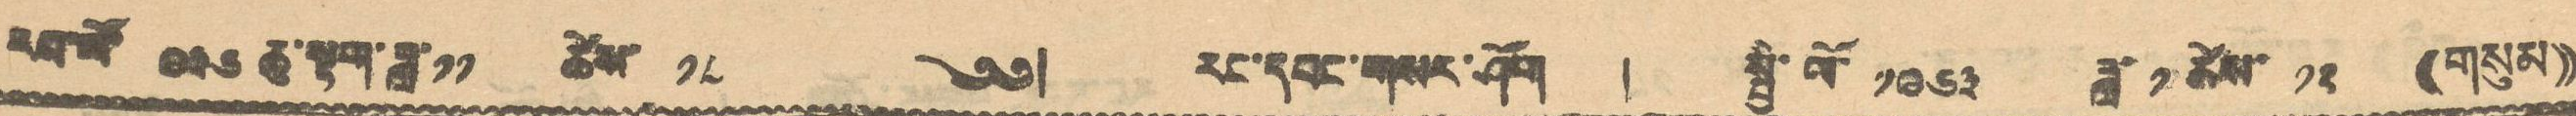རབ་ལོ་ ༩༣༦ ཆུ་སྟག་ཟླ་༡༡ ཚེས་ ༡༨ ༄༅། རང་དབང་གསར་ཤོག ། སྤྱི་ལོ་ ༡༩༦༣ ཟླ་ ༡ ཚེས་ ༡༢ ((གསུམ))
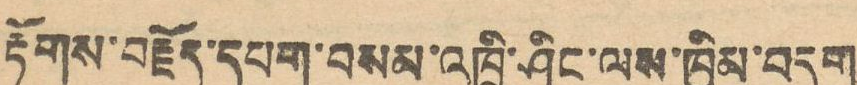རྟོགས་བརྗོད་དཔག་བསམ་འཁྲི་ཤིང་ལས་ཁྱིམ་བདག
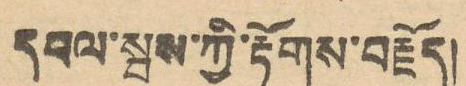དབལ་སྤས་ཀྱི་རྟོགས་བརྗོད།
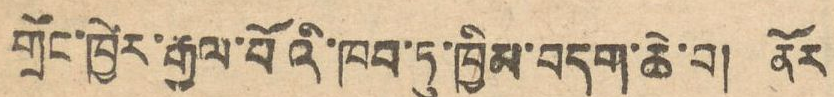གྲོང་ཁྱེར་རྒྱལ་པོའི་ཁབ་ཏུ་ཁྱིམ་བདག་ཆེ་བ། ནོར
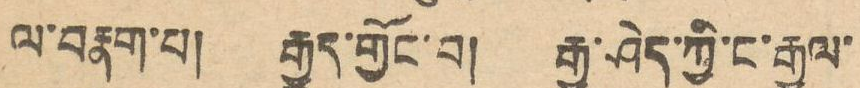ལ་བརྣག་པ། རྒྱུད་གྱོང་བ། རྒྱུ་ཤེད་ཀྱི་ང་རྒྱལ་
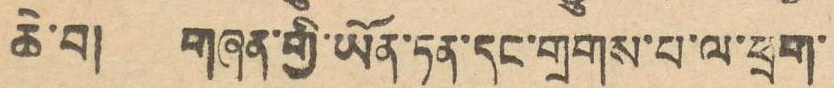ཆེ་བ། གཞན་གྱི་ཡོན་ཏན་དང་གྲགས་པ་ལ་ཕྲག་
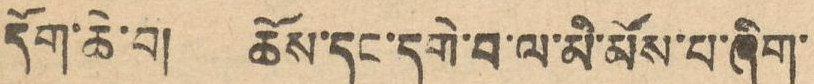དོག་ཆེ་བ། ཆོས་དང་དགེ་བ་ལ་མི་མོས་པ་ཞིག་
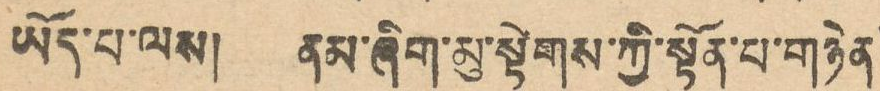ཡོད་པ་ལས། ནམ་ཞིག་མུ་སྟེགས་ཀྱི་སྟོན་པ་གཉེན་
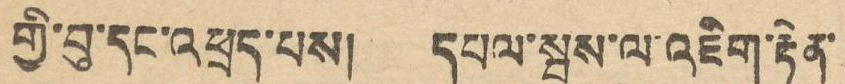གྱི་བུ་དང་འཕྲད་པས། དཔལ་སྤས་ལ་འཇིག་རྟེན་
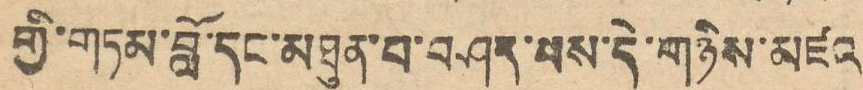གྱི་གཏམ་བློ་དང་མཐུན་པ་བཤད་པས་དེ་གཉིས་མཛའ
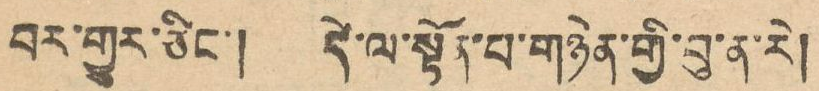བར་གྱུར་ཅིང་། དེ་ལ་སྟོད་པ་གཉེན་གྱི་བུ་ན་རེ།
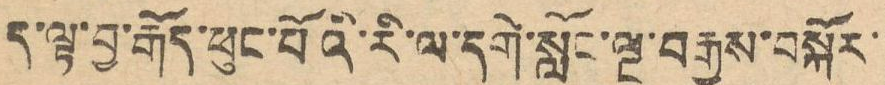ད་ལྟ་བྱ་རྒོད་ཕུང་པོའི་རི་ལ་དགེ་སློང་ལྔ་བརྒྱས་བསྐོར་
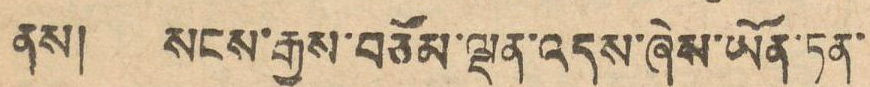ནས། སངས་རྒྱས་བཅོམ་ལྡན་འདས་ཞེས་ཡོན་ཏན་
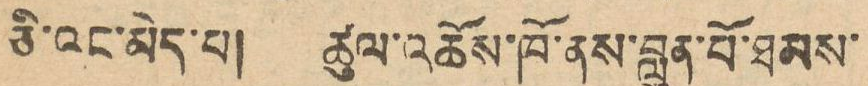ཅི་འང་མེད་པ། ཚུལ་འཆོས་ཁོ་ནས་བླུན་པོ་ཐམས་
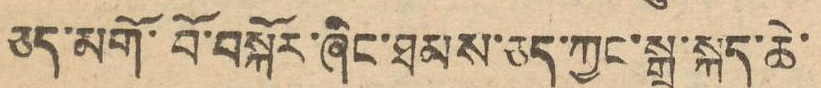ཅད་མགོ་བོ་བསྐོར་ཞིང་ཐམས་ཅད་ཀྱང་སྒྲ་སྐད་ཆེ་
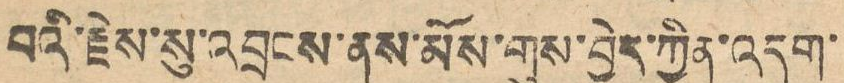བའི་རྗེས་སུ་འབྲངས་ནས་མོས་གུས་བྱེད་ཀྱིན་འདུག་
